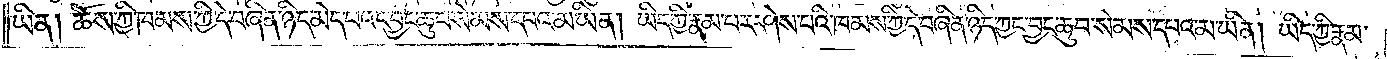ཡིན། ཆོས་ཀྱི་ཁམས་ཀྱི་དེ་བཞིན་ཉིད་མེད་པའང་བྱང་ཆུབ་སེམས་དཔའ་མ་ཡིན། ཡིད་ཀྱི་རྣམ་པར་ཤེས་པའི་ཁམས་ཀྱི་དེ་བཞིན་ཉིད་ཀྱང་བྱང་ཆུབ་སེམས་དཔའ་མ་ཡིན། ཡིད་ཀྱི་རྣམ་
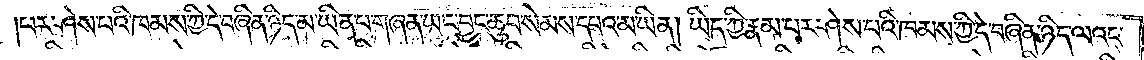པར་ཤེས་པའི་ཁམས་ཀྱི་དེ་བཞིན་ཉིད་མ་ཡིན་པ་གཞན་ཡང་བྱང་ཆུབ་སེམས་དཔའ་མ་ཡིན། ཡིད་ཀྱི་རྣམ་པར་ཤེས་པའི་ཁམས་ཀྱི་དེ་བཞིན་ཉིད་ལའང་
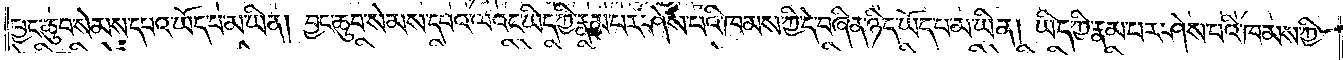བྱང་ཆུབ་སེམས་དཔའ་ཡོད་པ་མ་ཡིན། བྱང་ཆུབ་སེམས་དཔའ་ལའང་ཡིད་ཀྱི་རྣམ་པར་ཤེས་པའི་ཁམས་ཀྱི་དེ་བཞིན་ཉིད་ཡོད་པ་མ་ཡིན། ཡིད་ཀྱི་རྣམ་པར་ཤེས་པའི་ཁམས་ཀྱི་
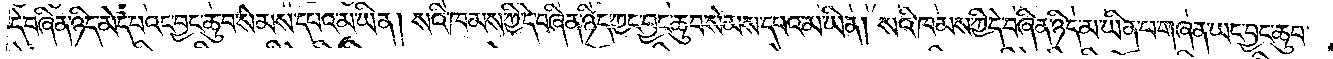དེ་བཞིན་ཉིད་མེད་པའང་བྱང་ཆུབ་སེམས་དཔའ་མ་ཡིན། སའི་ཁམས་ཀྱི་དེ་བཞིན་ཉིད་ཀྱང་བྱང་ཆུབ་སེམས་དཔའ་མ་ཡིན། སའི་ཁམས་ཀྱི་དེ་བཞིན་ཉིད་མ་ཡིན་པ་གཞན་ཡང་བྱང་ཆུབ་
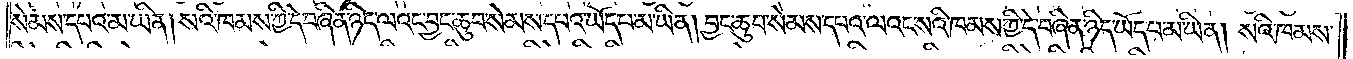སེམས་དཔའ་མ་ཡིན། སའི་ཁམས་ཀྱི་དེ་བཞིན་ཉིད་ལའང་བྱང་ཆུབ་སེམས་དཔའ་ཡོད་པ་མ་ཡིན། བྱང་ཆུབ་སེམས་དཔའ་ལའང་སའི་ཁམས་ཀྱི་དེ་བཞིན་ཉིད་ཡོད་པ་མ་ཡིན། སའི་ཁམས་
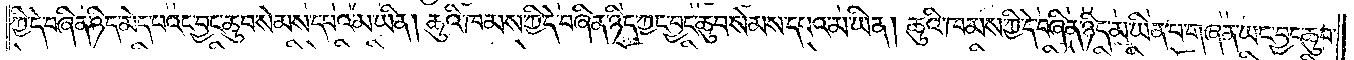ཀྱི་དེ་བཞིན་ཉིད་མེད་པའང་བྱང་ཆུབ་སེམས་དཔའ་མ་ཡིན། ཆུའི་ཁམས་ཀྱི་དེ་བཞིན་ཉིད་ཀྱང་བྱང་ཆུབ་སེམས་དཔའ་མ་ཡིན། ཆུའི་ཁམས་ཀྱི་དེ་བཞིན་ཉིད་མ་ཡིན་པ་གཞན་ཡང་བྱང་ཆུབ་
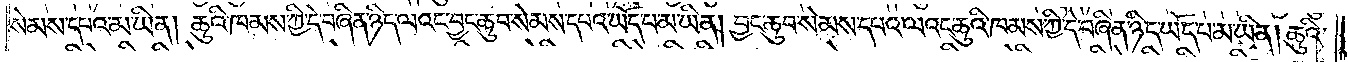སེམས་དཔའ་མ་ཡིན། ཆུའི་ཁམས་ཀྱི་དེ་བཞིན་ཉིད་ལའང་བྱང་ཆུབ་སེམས་དཔའ་ཡོད་པ་མ་ཡིན། བྱང་ཆུབ་སེམས་དཔའ་ལའང་ཆུའི་ཁམས་ཀྱི་དེ་བཞིན་ཉིད་ཡོད་པ་མ་ཡིན། ཆུའི་
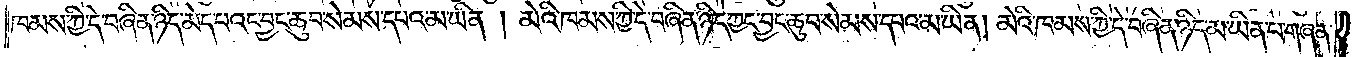ཁམས་ཀྱི་དེ་བཞིན་ཉིད་མེད་པའང་བྱང་ཆུབ་སེམས་དཔའ་མ་ཡིན། མེའི་ཁམས་ཀྱི་དེ་བཞིན་ཉིད་ཀྱང་བྱང་ཆུབ་སེམས་དཔའ་མ་ཡིན། མེའི་ཁམས་ཀྱི་དེ་བཞིན་ཉིད་མ་ཡིན་པ་གཞན་
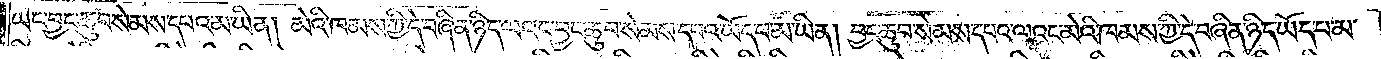ཡང་བྱང་ཆུབ་སེམས་དཔའ་མ་ཡིན། མེའི་ཁམས་ཀྱི་དེ་བཞིན་ཉིད་ལའང་བྱང་ཆུབ་སེམས་དཔའ་ཡོད་པ་མ་ཡིན། བྱང་ཆུབ་སེམས་དཔའ་ལའང་མེའི་ཁམས་ཀྱི་དེ་བཞིན་ཉིད་ཡོད་པ་མ་
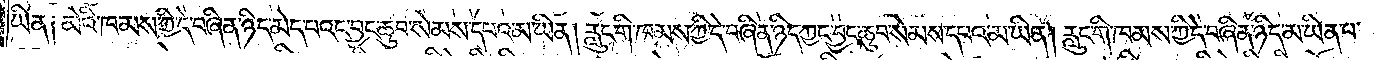ཡིན༑ མེའི་ཁམས་ཀྱི་དེ་བཞིན་ཉིད་མེད་པའང་བྱང་ཆུབ་སེམས་དཔའ་མ་ཡིན། རླུང་གི་ཁམས་ཀྱི་དེ་བཞིན་ཉིད་ཀྱང་བྱང་ཆུབ་སེམས་དཔའ་མ་ཡིན། རླུང་གི་ཁམས་ཀྱི་དེ་བཞིན་ཉིད་མ་ཡིན་པ་
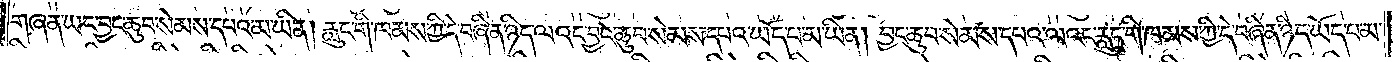གཞན་ཡང་བྱང་ཆུབ་སེམས་དཔའ་མ་ཡིན། རླུང་གི་ཁམས་ཀྱི་དེ་བཞིན་ཉིད་ལའང་བྱང་ཆུབ་སེམས་དཔའ་ཡོད་པ་མ་ཡིན། བྱང་ཆུབ་སེམས་དཔའ་ལའང་རླུང་གི་ཁམས་ཀྱི་དེ་བཞིན་ཉིད་ཡོད་པ་མ་
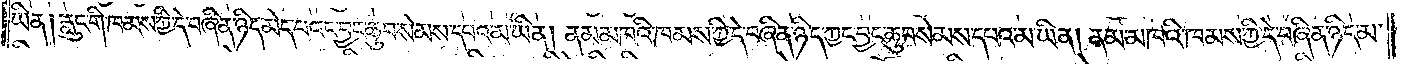ཡིན༑ རླུང་གི་ཁམས་ཀྱི་དེ་བཞིན་ཉིད་མེད་པའང་བྱང་ཆུབ་སེམས་དཔའ་མ་ཡིན། ནམ་མཁའི་ཁམས་ཀྱི་དེ་བཞིན་ཉིད་ཀྱང་བྱང་ཆུབ་སེམས་དཔའ་མ་ཡིན། ནམ་མཁའི་ཁམས་ཀྱི་དེ་བཞིན་ཉིད་མ་
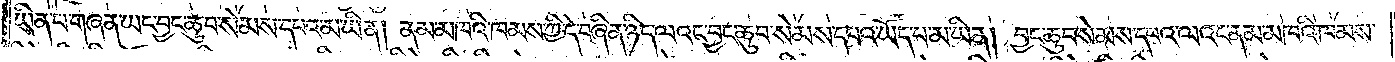ཡིན་པ་གཞན་ཡང་བྱང་ཆུབ་སེམས་དཔའ་མ་ཡིན། ནམ་མཁའི་ཁམས་ཀྱི་དེ་བཞིན་ཉིད་ལའང་བྱང་ཆུབ་སེམས་དཔའ་ཡོད་པ་མ་ཡིན། བྱང་ཆུབ་སེམས་དཔའ་ལའང་ནམ་མཁའི་ཁམས་
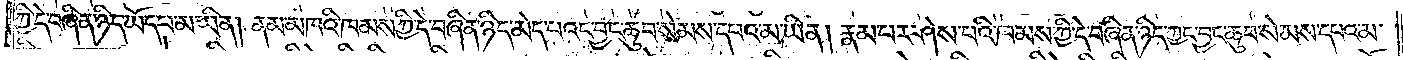ཀྱི་དེ་བཞིན་ཉིད་ཡོད་པ་མ་ཡིན། ནམ་མཁའི་ཁམས་ཀྱི་དེ་བཞིན་ཉིད་མེད་པའང་བྱང་ཆུབ་སེམས་དཔའ་མ་ཡིན། རྣམ་པར་ཤེས་པའི་ཁམས་ཀྱི་དེ་བཞིན་ཉིད་ཀྱང་བྱང་ཆུབ་སེམས་དཔའ་མ་
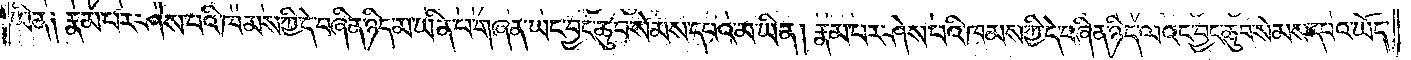ཡིན༑ རྣམ་པར་ཤེས་པའི་ཁམས་ཀྱི་དེ་བཞིན་ཉིད་མ་ཡིན་པ་གཞན་ཡང་བྱང་ཆུབ་སེམས་དཔའ་མ་ཡིན། རྣམ་པར་ཤེས་པའི་ཁམས་ཀྱི་དེ་བཞིན་ཉིད་ལའང་བྱང་ཆུབ་སེམས་དཔའ་ཡོད་
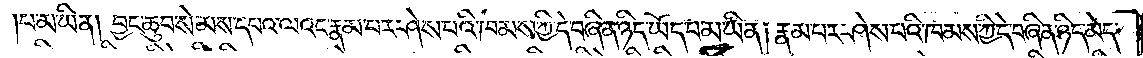པ་མ་ཡིན། བྱང་ཆུབ་སེམས་དཔའ་ལའང་རྣམ་པར་ཤེས་པའི་ཁམས་ཀྱི་དེ་བཞིན་ཉིད་ཡོད་པ་མ་ཡིན། རྣམ་པར་ཤེས་པའི་ཁམས་ཀྱི་དེ་བཞིན་ཉིད་མེད་
